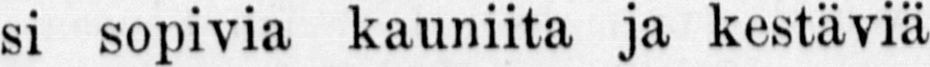si sopivia kauniita ja kestäviä
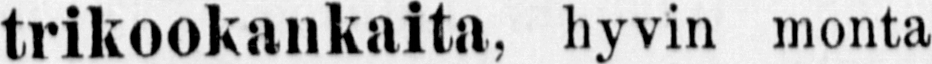trikookankaita, hyvin monta
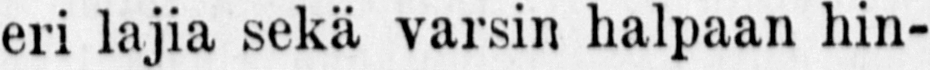eri lajia sekä varsin halpaan hin-
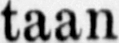taan
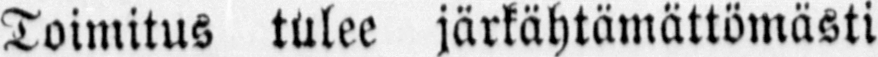Toimitus tulee järkähtämättömästi
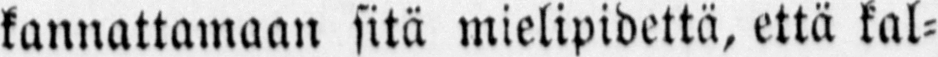kannattamaan sitä mielipidettä, että kal-
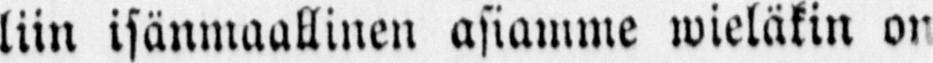liin isänmaallinen asiamme wieläkin on
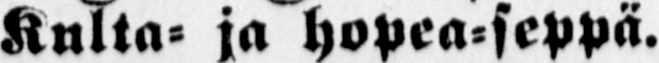Kulta- ja hopea-seppä.
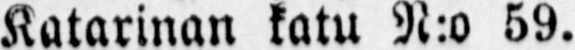Katarinan katu N:o 59.
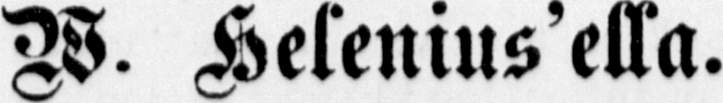W. Helenius'ella.
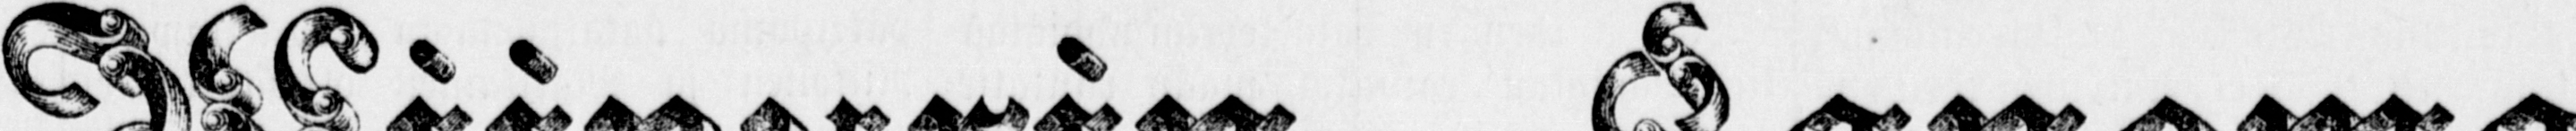Wiipurin Sanomat.
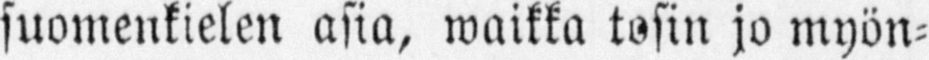suomenkielen asia, waikka tosin jo myön-
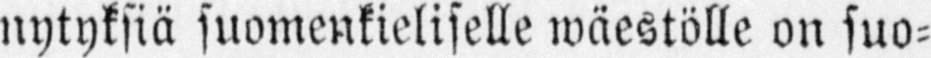nytyksiä suomenkieliselle wäestölle on suo-
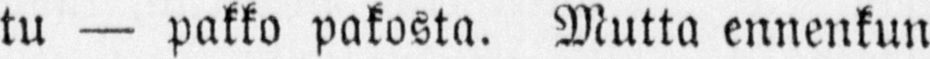tu — pakko pakosta. Mutta ennenkun
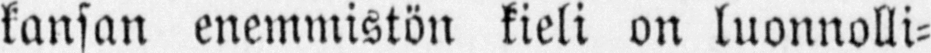kansan enemmistön kieli on luonnolli-
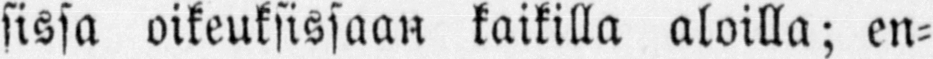sissa oikeuksissaan kaikilla aloilla; en-
